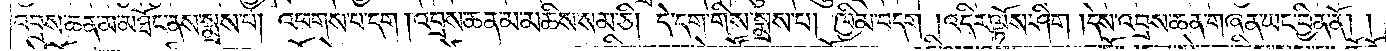འབྲས་ཆན་མ་མཐོང་ནས་སྨྲས་པ། འཕགས་པ་དག །འབྲས་ཆན་མ་མཆིས་སམ་ཅི། དེ་དག་གིས་སྨྲས་པ། ཁྱིམ་བདག །འདིར་ལྟོས་ཤིག །དེས་འབྲས་ཆན་གཞན་ཡང་བྱིན་ནོ། །
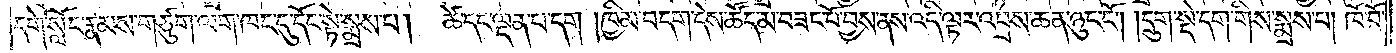དགེ་སློང་རྣམས་གཙུག་ལག་ཁང་དུ་དོང་སྟེ་སྨྲས་པ། ཚེ་དང་ལྡན་པ་དག །ཁྱིམ་བདག་དེས་ཚོད་མ་བཟང་པོ་བྱས་ནས་འདི་ལྟར་འབྲས་ཆན་ཉུང་ངོ༌། །དྲུག་སྡེ་དག་གིས་སྨྲས་པ། ཁོ་བོ་
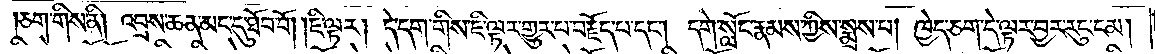ཅག་གིས་ནི། འབྲས་ཆན་མང་དུ་ཐོབ་བོ། །ཇི་ལྟར། དེ་དག་གིས་ཇི་ལྟར་གྱུར་པ་བརྗོད་པ་དང༌། དགེ་སློང་རྣམས་ཀྱིས་སྨྲས་པ། ཁྱེད་ཅག་དེ་ལྟར་བྱར་རུང་ངམ།
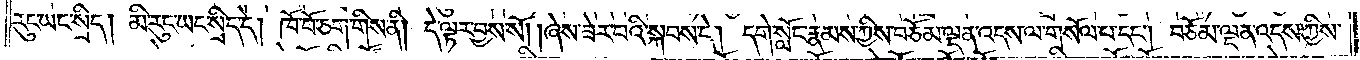རུང་ཡང་སྲིད། མི་རུང་ཡང་སྲིད་དེ། ཁོ་བོ་ཅག་གིས་ནི། དེ་ལྟར་བྱས་སོ། །ཞེས་ཟེར་བའི་སྐབས་དེ། དགེ་སློང་རྣམས་ཀྱིས་བཅོམ་ལྡན་འདས་ལ་གསོལ་བ་དང༌། བཅོམ་ལྡན་འདས་ཀྱིས་
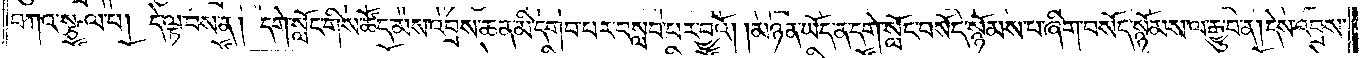བཀའ་སྩལ་པ། དེ་ལྟ་བས་ན། དགེ་སློང་གིས་ཚོད་མས་འབྲས་ཆན་མི་དགབ་པར་བསླབ་པར་བྱའོ། །མཉན་ཡོད་ན་དགེ་སློང་བསོད་སྙོམས་བ་ཞིག་བསོད་སྙོམས་ལ་རྒྱུ་བ་ན། དེས་འབྲས་
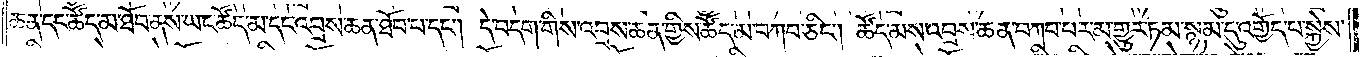ཆན་དང་ཚོད་མ་ཐོབ་ནས་ཡང་ཚོད་མ་དང་འབྲས་ཆན་ཐོབ་པ་དང༌། དེ་བདག་གིས་འབྲས་ཆན་གྱིས་ཚོད་མ་བཀབ་ཅིང༌། ཚོད་མས་འབྲས་ཆན་བཀབ་པར་མ་གྱུར་ཏམ་སྙམ་དུ་འགྱོད་པ་སྐྱེས་
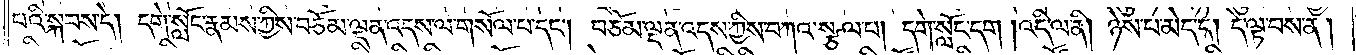པའི་སྐབས་དེ། དགེ་སློང་རྣམས་ཀྱིས་བཅོམ་ལྡན་འདས་ལ་གསོལ་བ་དང༌། བཅོམ་ལྡན་འདས་ཀྱིས་བཀའ་སྩལ་པ། དགེ་སློང་དག །འདི་ལ་ནི། ཉེས་པ་མེད་དེ། །དེ་ལྟ་བས་ན།
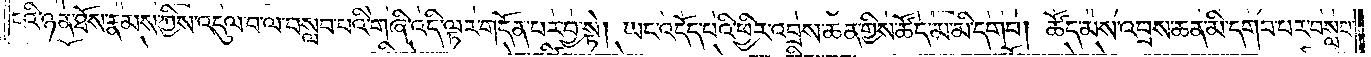ངའི་ཉན་ཐོས་རྣམས་ཀྱིས་འདུལ་བ་ལ་བསླབ་པའི་གཞི་འདི་ལྟར་གདོན་པར་བྱ་སྟེ། ཡང་འདོད་པའི་ཕྱིར་འབྲས་ཆན་གྱིས་ཚོད་མ་མི་དགབ། ཚོད་མས་འབྲས་ཆན་མི་དགབ་པར་བསླབ་
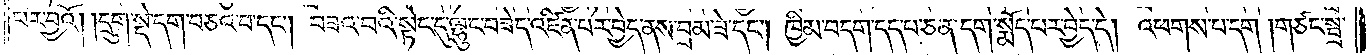པར་བྱའོ། །དྲུག་སྡེ་དག་བཅའ་བ་དང༌། བཟའ་བའི་སྟེང་དུ་ལྷུང་བཟེད་འཛིན་པར་བྱེད་ནས་བྲམ་ཟེ་དང༌། ཁྱིམ་བདག་དད་པ་ཅན་དག་སྨོད་པར་བྱེད་དེ། འཕགས་པ་དག །གཙང་སྦྲ་
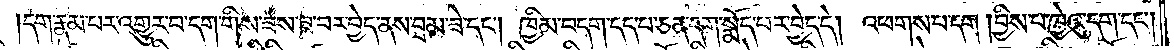དག་རྣམ་པར་འགྱུར་པ་དག་གིས་ཟས་ཟ་བར་བྱེད་ནས་བྲམ་ཟེ་དང༌། ཁྱིམ་བདག་དད་པ་ཅན་དག་སྨོད་པར་བྱེད་དེ། འཕགས་པ་དག །བྱིས་པ་ཁྱེའུ་དག་དང༌།
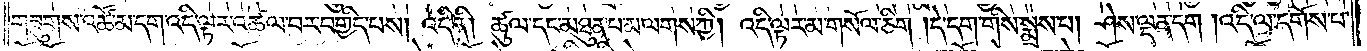གཟུགས་འཚོ་མ་དག་འདི་ལྟར་འཚལ་བར་བགྱིད་པས། འདི་ནི། ཚུལ་དང་མཐུན་པ་མ་ལགས་ཀྱི། འདི་ལྟར་མ་གསོལ་ཅིག །དེ་དག་གིས་སྨྲས་པ། ཤེས་ལྡན་དག །འདི་ལ་དགོས་པ་
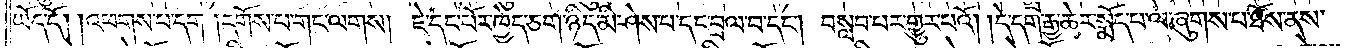ཡོད་དོ། །འཕགས་པ་དག །དགོས་པ་གང་ལགས། ཇེ་དང་པོར་ཁྱེད་ཅག་ཉིད་མི་ཤེས་པ་དང་བྲལ་བ་དང༌། བསླབ་པར་གྱུར་པའོ། །དེ་དག་རྒྱ་ཆེར་སྨོད་པ་ལ་ཞུགས་པ་ཐོས་ནས་
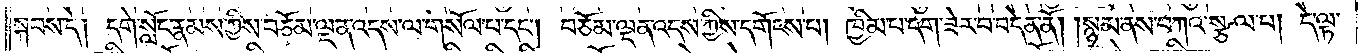སྐབས་དེ། དགེ་སློང་རྣམས་ཀྱིས་བཅོམ་ལྡན་འདས་ལ་གསོལ་བ་དང༌། བཅོམ་ལྡན་འདས་ཀྱིས་དགོངས་པ། ཁྱིམ་པ་དག་ཟེར་བ་བདེན་ནོ། །སྙམ་ནས་བཀའ་སྩལ་པ། དེ་ལྟ་
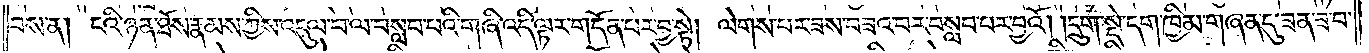བས་ན། ངའི་ཉན་ཐོས་རྣམས་ཀྱིས་འདུལ་བ་ལ་བསླབ་པའི་གཞི་འདི་ལྟར་གདོན་པར་བྱ་སྟེ། ལེགས་པར་ཟས་བཟའ་བར་བསླབ་པར་བྱའོ། །དྲུག་སྡེ་དག་ཁྱིམ་གཞན་དུ་ཟན་ཟ་བ་
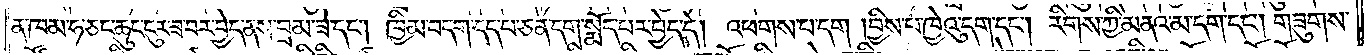ན་ཁམ་ཧ་ཅང་ཆུང་ངུར་ཟ་བར་བྱེད་ནས་བྲམ་ཟེ་དང༌། ཁྱིམ་བདག་དད་པ་ཅན་དག་སྨོད་པར་བྱེད་དེ། འཕགས་པ་དག །བྱིས་པ་ཁྱེའུ་དག་དང༌། རིགས་ཀྱི་མནའ་མ་དག་དང༌། གཟུགས་
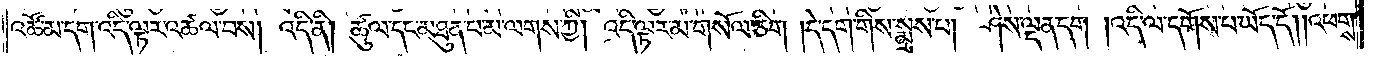འཚོ་མ་དག་འདི་ལྟར་འཚལ་བས། འདི་ནི། ཚུལ་དང་མཐུན་པ་མ་ལགས་ཀྱི། འདི་ལྟར་མ་གསོལ་ཅིག །དེ་དག་གིས་སྨྲས་པ། ཤེས་ལྡན་དག །འདི་ལ་དགོས་པ་ཡོད་དོ། །འཕགས་
